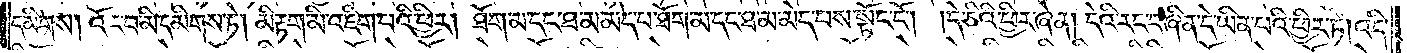དམིགས། འོང་བ་མི་དམིགས་ཏེ། མི་རྟག་མི་འཇིག་པའི་ཕྱིར། ཐོག་མ་དང་ཐ་མ་མེད་པ་ཐོག་མ་དང་ཐ་མ་མེད་པས་སྟོང་ངོ༌། །དེ་ཅིའི་ཕྱིར་ཞེ་ན། དེའི་རང་བཞིན་དེ་ཡིན་པའི་ཕྱིར་ཏེ། འདི་
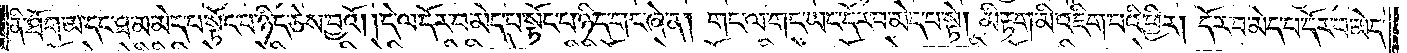ནི་ཐོག་མ་དང་ཐ་མ་མེད་པ་སྟོང་པ་ཉིད་ཅེས་བྱའོ། །དེ་ལ་དོར་བ་མེད་པ་སྟོང་པ་ཉིད་གང་ཞེ་ན། གང་ལ་གང་ཡང་དོར་བ་མེད་པ་སྟེ། མི་རྟག་མི་འཇིག་པའི་ཕྱིར། དོར་བ་མེད་པ་དོར་བ་མེད་
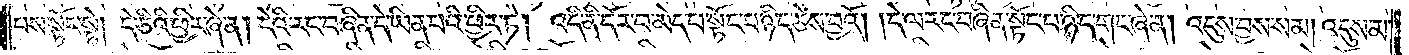པས་སྟོང་སྟེ། དེ་ཅིའི་ཕྱིར་ཞེ་ན། དེའི་རང་བཞིན་དེ་ཡིན་པའི་ཕྱིར་ཏེ། འདི་ནི་དོར་བ་མེད་པ་སྟོང་པ་ཉིད་ཅེས་བྱའོ། །དེ་ལ་རང་བཞིན་སྟོང་པ་ཉིད་གང་ཞེ་ན། འདུས་བྱས་སམ། འདུས་མ་
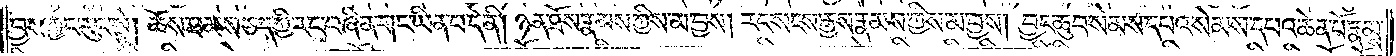བྱས་ཀྱང་རུང་སྟེ། ཆོས་ཐམས་ཅད་ཀྱི་རང་བཞིན་གང་ཡིན་པ་དེ་ནི། ཉན་ཐོས་རྣམས་ཀྱིས་མ་བྱས། རང་སངས་རྒྱས་རྣམས་ཀྱིས་མ་བྱས། བྱང་ཆུབ་སེམས་དཔའ་སེམས་དཔའ་ཆེན་པོ་རྣམས་
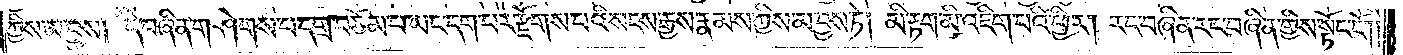ཀྱིས་མ་བྱས། དེ་བཞིན་གཤེགས་པ་དགྲ་བཅོམ་པ་ཡང་དག་པར་རྫོགས་པའི་སངས་རྒྱས་རྣམས་ཀྱིས་མ་བྱས་ཏེ། མི་རྟག་མི་འཇིག་པའི་ཕྱིར། རང་བཞིན་རང་བཞིན་གྱིས་སྟོང་ངོ༌། །
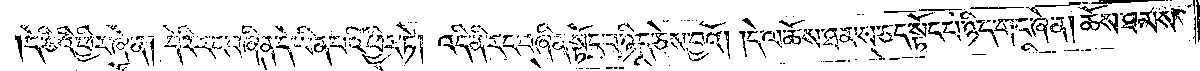དེ་ཅིའི་ཕྱིར་ཞེ་ན། དེའི་རང་བཞིན་དེ་ཡིན་པའི་ཕྱིར་ཏེ། འདི་ནི་རང་བཞིན་སྟོང་པ་ཉིད་ཅེས་བྱའོ། །དེ་ལ་ཆོས་ཐམས་ཅད་སྟོང་པ་ཉིད་གང་ཞེ་ན། ཆོས་ཐམས་
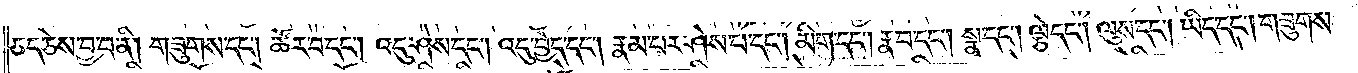ཅད་ཅེས་བྱ་བ་ནི། གཟུགས་དང༌། ཚོར་བ་དང༌། འདུ་ཤེས་དང༌། འདུ་བྱེད་དང༌། རྣམ་པར་ཤེས་པ་དང༌། མིག་དང༌། རྣ་བ་དང༌། སྣ་དང༌། ལྕེ་དང༌། ལུས་དང༌། ཡིད་དང༌། གཟུགས་
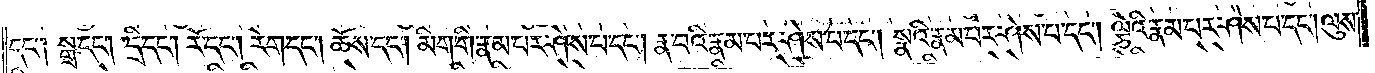དང༌། སྒྲ་དང༌། དྲི་དང༌། རོ་དང༌། རེག་དང༌། ཆོས་དང༌། མིག་གི་རྣམ་པར་ཤེས་པ་དང༌། རྣ་བའི་རྣམ་པར་ཤེས་པ་དང༌། སྣའི་རྣམ་པར་ཤེས་པ་དང༌། ལྕེའི་རྣམ་པར་ཤེས་པ་དང༌། ལུས་
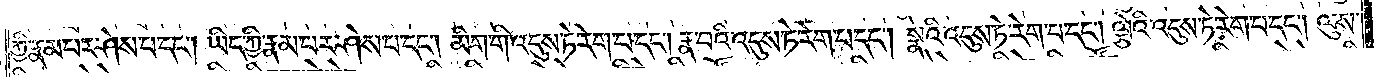ཀྱི་རྣམ་པར་ཤེས་པ་དང༌། ཡིད་ཀྱི་རྣམ་པར་ཤེས་པ་དང༌། མིག་གི་འདུས་ཏེ་རེག་པ་དང༌། རྣ་བའི་འདུས་ཏེ་རེག་པ་དང༌། སྣའི་འདུས་ཏེ་རེག་པ་དང༌། ལྕེའི་འདུས་ཏེ་རེག་པ་དང༌། ལུས་
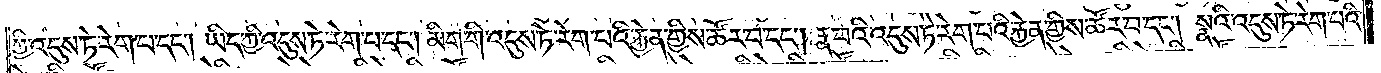ཀྱི་འདུས་ཏེ་རེག་པ་དང༌། ཡིད་ཀྱི་འདུས་ཏེ་རེག་པ་དང༌། མིག་གི་འདུས་ཏེ་རེག་པའི་རྐྱེན་གྱིས་ཚོར་བ་དང༌། རྣ་བའི་འདུས་ཏེ་རེག་པའི་རྐྱེན་གྱིས་ཚོར་བ་དང༌། སྣའི་འདུས་ཏེ་རེག་པའི་
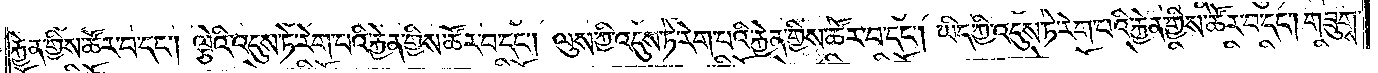རྐྱེན་གྱིས་ཚོར་བ་དང༌། ལྕེའི་འདུས་ཏེ་རེག་པའི་རྐྱེན་གྱིས་ཚོར་བ་དང༌། ལུས་ཀྱི་འདུས་ཏེ་རེག་པའི་རྐྱེན་གྱིས་ཚོར་བ་དང༌། ཡིད་ཀྱི་འདུས་ཏེ་རེག་པའི་རྐྱེན་གྱིས་ཚོར་བ་དང༌། གཟུགས་
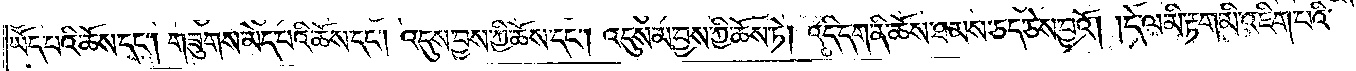ཡོད་པའི་ཆོས་དང༌། གཟུགས་མེད་པའི་ཆོས་དང༌། འདུས་བྱས་ཀྱི་ཆོས་དང༌། འདུས་མ་བྱས་ཀྱི་ཆོས་ཏེ། འདི་དག་ནི་ཆོས་ཐམས་ཅད་ཅེས་བྱའོ། །དེ་ལ་མི་རྟག་མི་འཇིག་པའི་
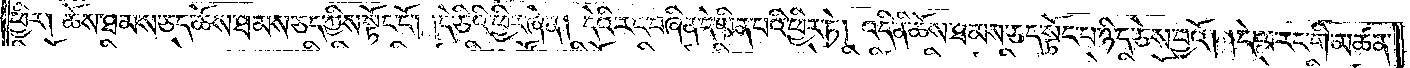ཕྱིར། ཆོས་ཐམས་ཅད་ཆོས་ཐམས་ཅད་ཀྱིས་སྟོང་ངོ༌། །དེ་ཅིའི་ཕྱིར་ཞེ་ན། དེའི་རང་བཞིན་དེ་ཡིན་པའི་ཕྱིར་ཏེ། འདི་ནི་ཆོས་ཐམས་ཅད་སྟོང་པ་ཉིད་ཅེས་བྱའོ། །དེ་ལ་རང་གི་མཚན་
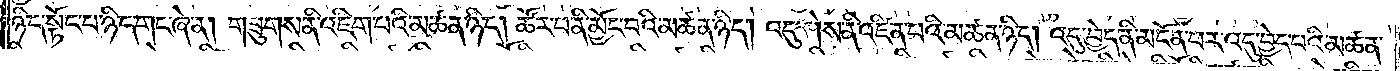ཉིད་སྟོང་པ་ཉིད་གང་ཞེ་ན། གཟུགས་ནི་འཇིག་པའི་མཚན་ཉིད། ཚོར་བ་ནི་མྱོང་བའི་མཚན་ཉིད། འདུ་ཤེས་ནི་འཛིན་པའི་མཚན་ཉིད། འདུ་བྱེད་ནི་མངོན་པར་འདུ་བྱེད་པའི་མཚན་
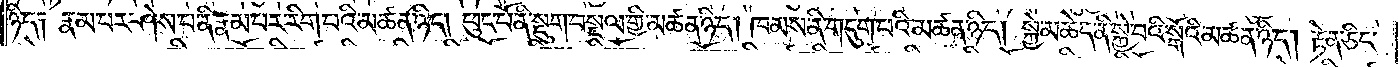ཉིད། རྣམ་པར་ཤེས་པ་ནི་རྣམ་པར་རིག་པའི་མཚན་ཉིད། ཕུང་པོ་ནི་སྡུག་བསྔལ་གྱི་མཚན་ཉིད། ཁམས་ནི་གདུག་པའི་མཚན་ཉིད། སྐྱེ་མཆེད་ནི་སྐྱེ་བའི་སྒོའི་མཚན་ཉིད། རྟེན་ཅིང་
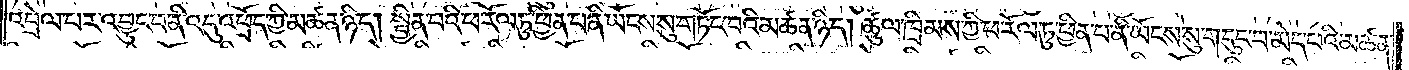འབྲེལ་བར་འབྱུང་བ་ནི་འདུ་འཕྲོད་ཀྱི་མཚན་ཉིད། སྦྱིན་པའི་ཕ་རོལ་ཏུ་ཕྱིན་པ་ནི་ཡོངས་སུ་གཏོང་བའི་མཚན་ཉིད། ཚུལ་ཁྲིམས་ཀྱི་ཕ་རོལ་ཏུ་ཕྱིན་པ་ནི་ཡོངས་སུ་གདུང་བ་མེད་པའི་མཚན་
